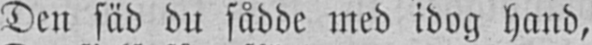Den säd du sådde med idog hand,
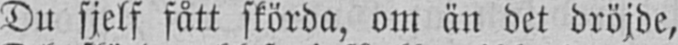Du sjelf fått skörda, om än det dröjde,
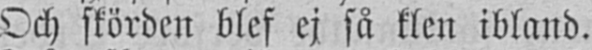Och skörden blef ej så klen ibland.
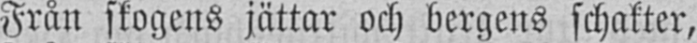Från skogens jättar och bergens schakter,
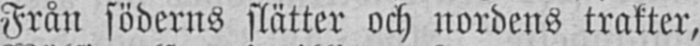Från söderns slätter och nordens trakter,
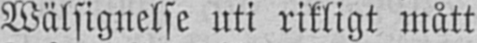Wälsignelse uti rikligt mått
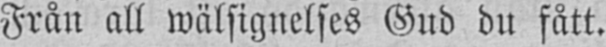Från all wälsignelses Gud du fått.
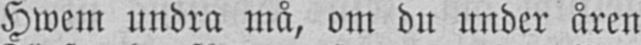Hwem undra må, om du under åren
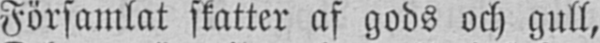Församlat skatter af gods och gull,
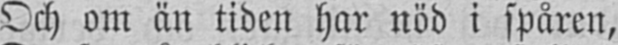Och om än tiden har nöd i spåren,
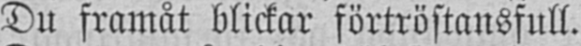Du framåt blickar förtröstansfull.
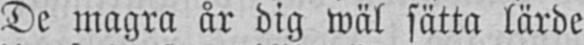De magra år dig wäl sätta lärde
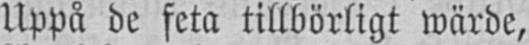Uppå de feta tillbörligt wärde,
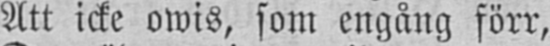Att icke owis, som engång förr,
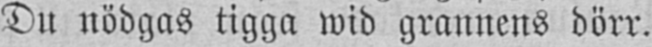Du nödgas tigga wid grannens dörr.
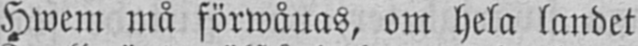Hwem må förwånas, om hela landet
